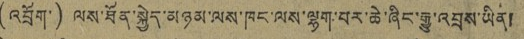(འབྲོག་) ལས་ཐོན་སྐྱེད་མཉམ་ལས་ཁང་ལས་ལྷག་པར་ཆེ་ཞིང་རྒྱུ་འབྲས་ཡིན།
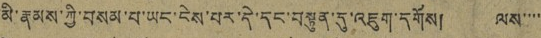མི་རྣམས་ཀྱི་བསམ་པ་ཡང་ངེས་པར་དེ་དང་བསྟུན་དུ་འཇུག་དགོས། ལས་་་་
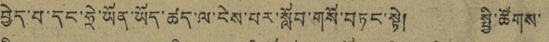བྱེད་པ་དང་ཧྲེ་ཡོན་ཡོད་ཚད་ལ་ངེས་པར་སློབ་གསོ་བཏང་སྟེ། སྤྱི་ཚོགས་
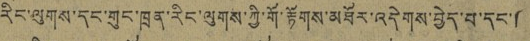རིང་ལུགས་དང་གུང་ཁྲན་རིང་ལུགས་ཀྱི་གོ་རྟོགས་མཐོར་འདེགས་བྱེད་པ་དང་།
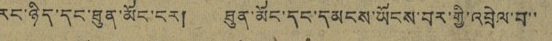རང་ཉིད་དང་ཐུན་མོང་ངར། ཐུན་མོང་དང་དམངས་ཡོངས་བར་གྱི་འབྲེལ་བ་་
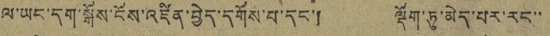ལ་ཡང་དག་སྒོས་ངོས་འཛིན་བྱེད་དགོས་པ་དང་། ལྡོག་ཏུ་མེད་པར་རང་་
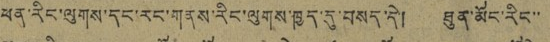ཕན་རིང་ལུགས་དང་རང་གནས་རིང་ལུགས་ཁྱད་དུ་བསད་དེ། ཐུན་མོང་རིང་་
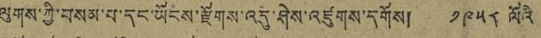ལུགས་ཀྱི་བསམ་པ་དང་ཡོངས་རྫོགས་འདུ་ཤེས་འཛུགས་དགོས། ༡༩༥༨ ལོའི་
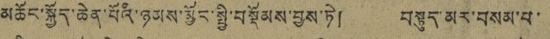མཆོང་སྐྱོད་ཆེན་པོའི་ཉམས་མྱོང་སྤྱི་བསྡོམས་བྱས་ཏེ། བསྟུད་མར་བསམ་པ་་
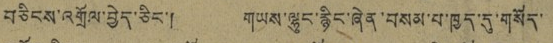བཅིངས་འགྲོལ་བྱེད་ཅིང་། གཡས་ལྷུང་རྙིང་ཞེན་བསམ་པ་ཁྱད་དུ་གསོད་
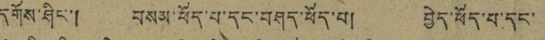དགོས་ཤིང་། བསམ་ཕོད་པ་དང་བཤད་ཕོད་པ། བྱེད་ཕོད་པ་དང་
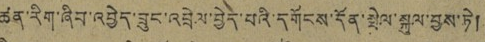ཚན་རིག་ཞིབ་འབྱེད་ཟུང་འབྲེལ་བྱེད་པའི་དགོངས་དོན་སྤེལ་སྐུལ་བྱས་ཏེ།
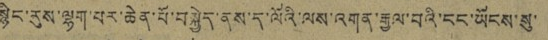སྙིང་རུས་ལྷག་པར་ཆེན་པོ་བསྐྱེད་ནས་ད་ལོའི་ལས་འགན་རྒྱལ་བའི་ངང་ཡོངས་སུ་
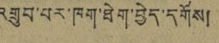འགྲུབ་པར་ཁག་ཐེག་བྱེད་དགོས།
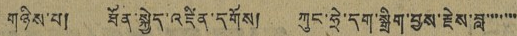གཉིས་པ། ཐོན་སྐྱེད་འཛིན་དགོས། ཀུང་ཧྲེ་དག་སྒྲིག་བྱས་རྗེས་ཟླ་་་་་་་
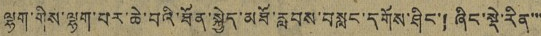ལྷག་གིས་ལྷག་པར་ཆེ་བའི་ཐོན་སྐྱེད་མཐོ་རླབས་བསླང་དགོས་ཤིང་། ཞིང་སྡེ་རིན་་་
